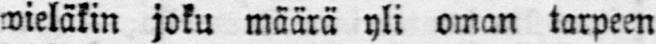wieläkin joku määrä yli oman tarpeen
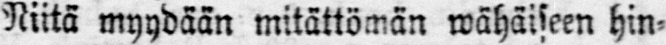Nitä myydään mitättömän wähäiseen hin-
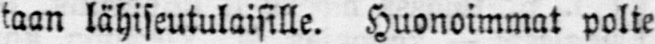taan lähiseutulaisille. Huonoimmat polte-
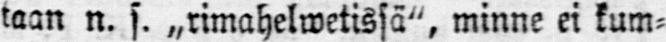taan n. s. „rimahelwetissä", minne ei kum-
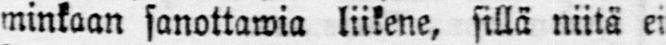minkaan sanottawia liikene, sillä niitä ei
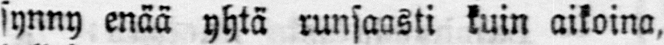synny enää yhtä runsaasti kuin aikoina,
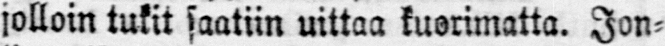jolloin tukit saatiin uittaa kuorimatta. Jon-
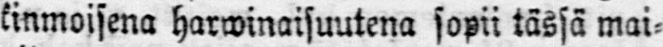kinmoisena harwinaisuutena sopii tässä mai-
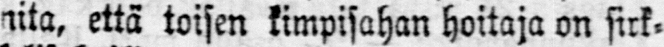nita, että toisen kimpisahan hoitaja on sirk-
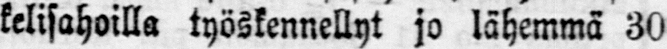kelisahoilla työskennellyt jo lähemmä 30
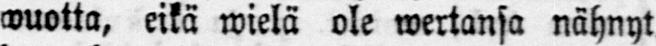wuotta, eikä wielä ole wertansa nähnyt
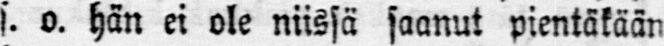s. o. hän ei ole niissä saanut pientäkään
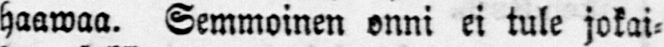haawaa. Semmoinen onni ei tule jokai-
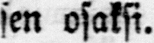sen osaksi.
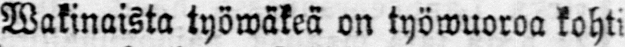Wakinaista työwäkeä on työwuoroa kohti
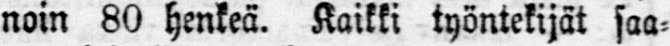noin 80 henkeä. Kaikki työntekijät saa-
